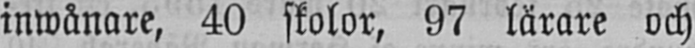inwånare, 40 skolor, 97 lärare och
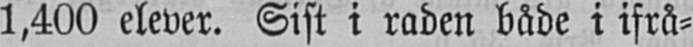1,400 elever. Sist i raden både i ifrå-
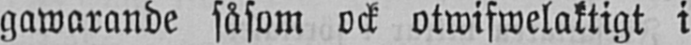gawarande såsom ock otwifwelaktigt i
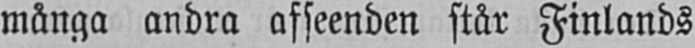många andra afseenden står Finlands
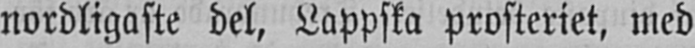nordligaste del, Lappska prosteriet, med
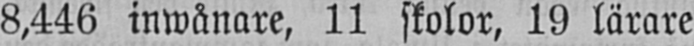8,446 inwånare, 11 skolor, 19 lärare
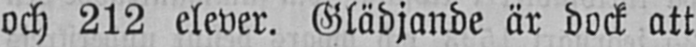och 212 elever. Glädjande är dock att
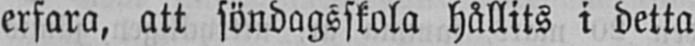erfara, att söndagsskola hållits i detta
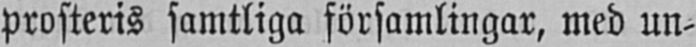prosteris samtliga församlingar, med un-
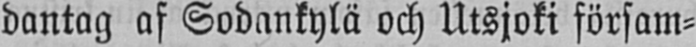dantag af Sodankylä och Utsjoki försam-
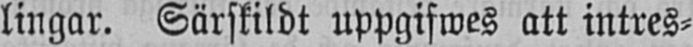lingar. Särskildt uppgifwes att intres-
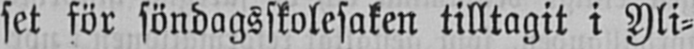set för söndagsskolesaken tilltagit i Yli-
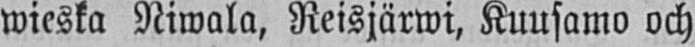wieska Niwala, Reisjärwi, Kuusamo och
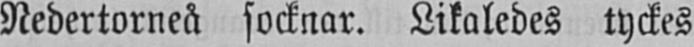Nedertorneå socknar. Likaledes tyckes
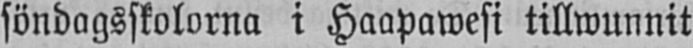söndagsskolorna i Haapawesi tillwunnit
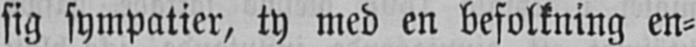sig sympatier, ty med en befolkning en-
